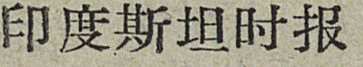印度斯坦时报
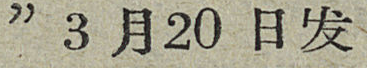”3月20日发
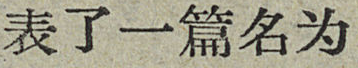表了一篇名为
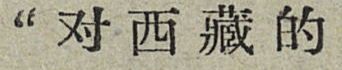“对西藏的
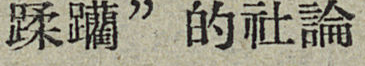蹂躪”的社論
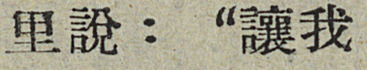里說：“讓我
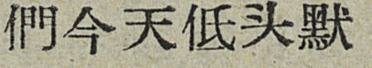們今天低头默
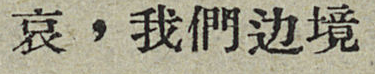哀，我們边境
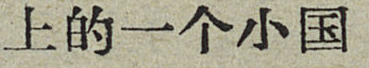上的一个小国
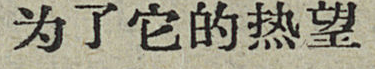为了它的热望
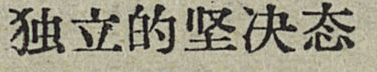独立的坚决态
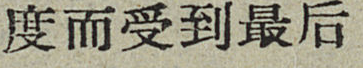度而受到最后
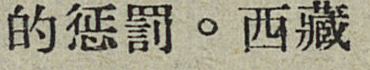的惩罰。西藏
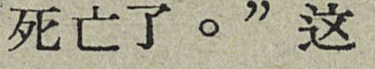死亡了。”这
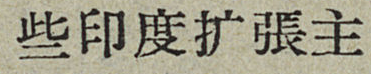些印度扩張主
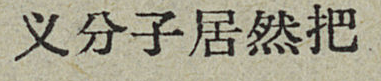义分子居然把
